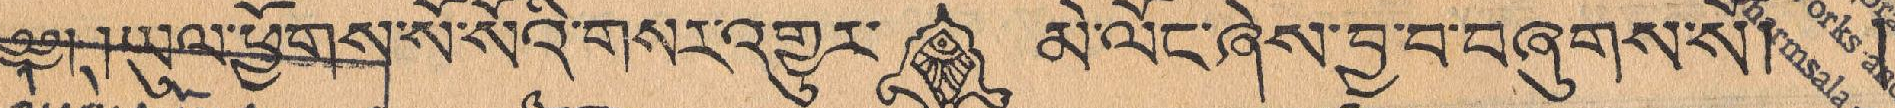༄༅། །ཡུལ་ཕྱོགས་སོ་སོའི་གསར་འགྱུར་ མེ་ལོང་ཞེས་བྱ་བ་གཞུགས་སོ། །
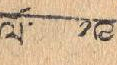ལོ་ ༡༩
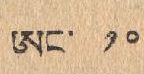ཨང་ ༡༠
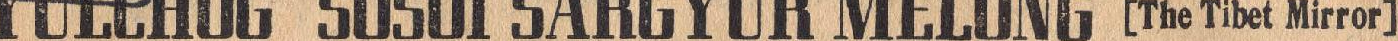YULCHOG SOSOI SARGYUR MELONG [The Tibet Mirror]
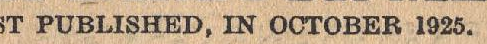FIRST PUBLISHED, IN OCTOBER 1925.
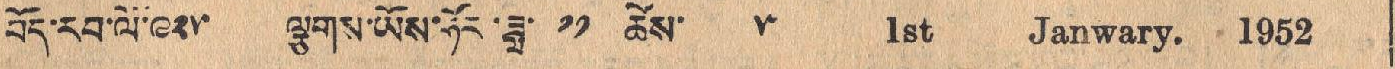བོད་རབ་ལོ་༩༢༥ ལྕགས་ཡོས་ཧོར་ཟླ་ ༡༡ ཚེས་ ༥ 1st Janwary. 1952
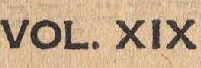VOL. XIX
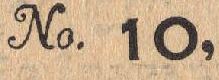No. 10,
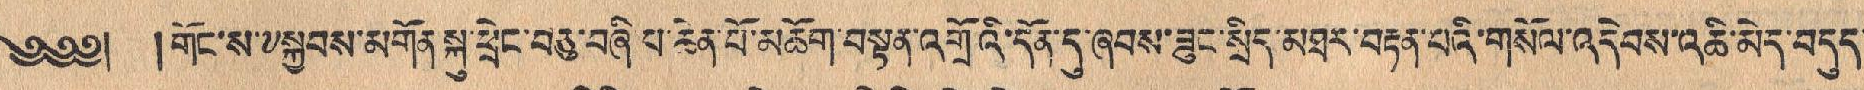༄༅༅། །གོང་ས་༸སྐྱབས་མགོན་སྐུ་ཕྲེང་བཅུ་བཞི་པ་ཆེན་པོ་མཆོག་བསྟན་འགྲོའི་དོན་དུ་ཞབས་ཟུང་སྲིད་མཐར་བརྟན་པའི་གསོལ་འདེབས་འཆི་མེད་བདུད་
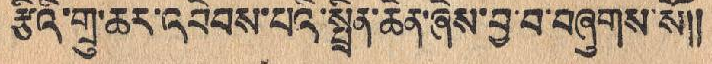རྩིའི་གྲུ་ཆར་འབེབས་པའི་སྤྲིན་ཆེན་ཞེས་བྱ་བ་བཞུགས་སོ།།
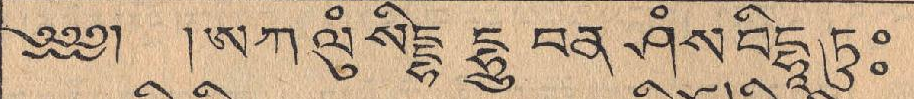༄༅༅། །ཨ ཀ ལུཾ སིདྡྷ དྷྲུ བན ཤཾས བིདྷཱ ཏུཿ
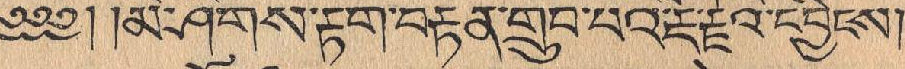༄༅༅། ། མི་ཤིགས་རྟག་བརྟན་གྲུབ་པའི་རྡོ་རྗེའི་དབྱིངས།།
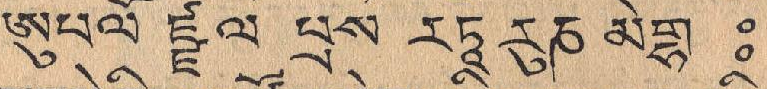ཨུཔལོ ཛྫ ལ པྲས རཏཱ རུཎ མེགྷ ཿ
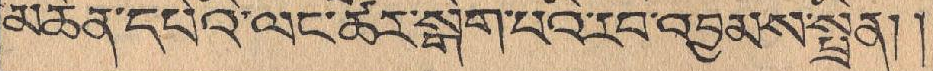མཚན་དཔེའི་ལང་ཚོར་སྒེག་པའི་རབ་འབྱམས་སྤྲིན། །
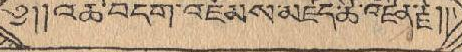༄།།འཆི་བདག་འཛོམས་མཛད་ཚེ་འཛིན་རྗེ།།
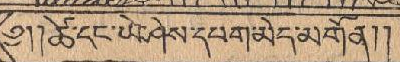༄།།ཚེ་དང་ཡེ་ཤེས་དཔག་མེད་མགོན།།
